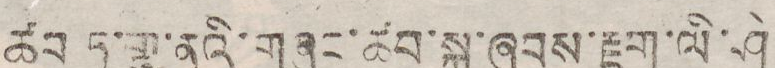ཚབ་ཏུ་གྷ་ནའི་གཞུང་ཚབ་སྐུ་ཞབས་རྫག་ལི་ཤེ་
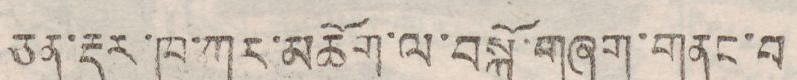ཅན་རྡར་ཁ་ཀར་མཆོག་ལ་བསྐོ་གཞག་གནང་བ
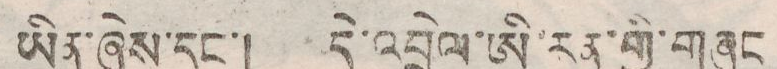ཡིན་ཞེས་དང་། དེ་འབྲེལ་ཨི་རན་གྱི་གཞུང་
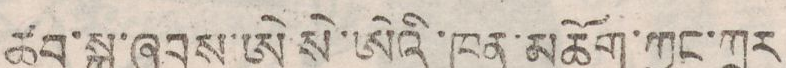ཚབ་སྐུ་ཞབས་ཨེ སེ་ཨེའི་ཁན་མཆོག་ཀྱང་ཀྲར
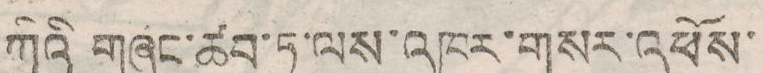ཀིའི གཞུང་ཚབ་ཏུ་ལས་འཁུལ་གསར་འཕོས་
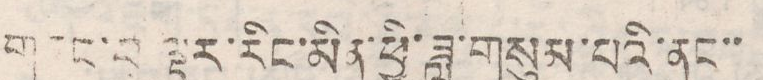གསང་བ ལྟར་རིན་མིན་ཕྱི་ཟླ་གསུམ་པའི་ནང་་
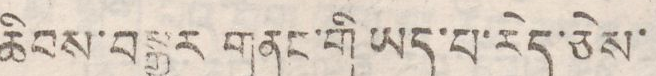ཆིབས་བསྒྱུར གནང་གྱི་ཡད་པ་རེད་ཅེས་
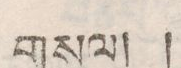གསལ།།
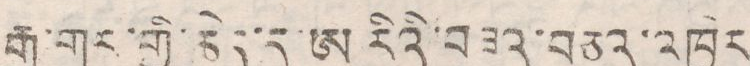རྒྱ་གར་གྱི་ཆེད་དུ་ཨ རིའི་བཟའ་བཅའ་འཁྱེར
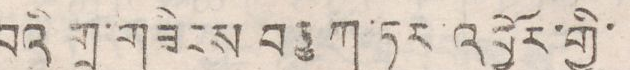བའི གྲུ་གཟེངས བཅུ ཀ་ཏར་འབྱོར་གྱི་
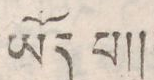ཡོད པ།།
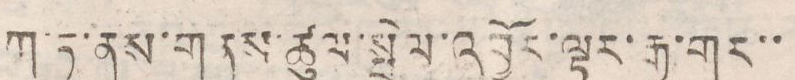ཀ་ཏ་ནས་གནས་ཚུལ་སྤེལ་འབྱོར་ལྟར་རྒྱ་གར་་
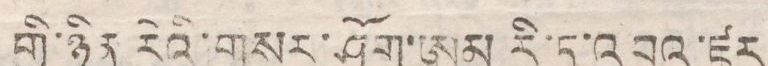གྱི་ཉིན རེའི་གསར་ཤོགས་ཨམ རི་ཏ་འབའ་ཛར
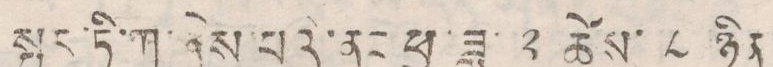སྤར་ཏི་ཀ་ཞེས་པའི་ནང ཕྱ་ཟླ་ ༢ ཚེས་ ༨ ཉིན
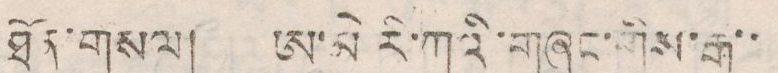ཐོན་གསལ། ཨ་མེ རི་ཀའི་གཞུང་གིས་རྒྱ་་
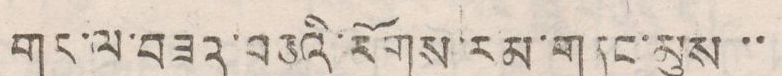གང་ལ་བཟའ་བརྩའི་རོགས་རམ་གནང་མུས་་
